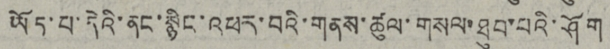ཡོད་པ་དེའི་ནང་སྙིང་འཕར་བའི་གནས་ཚུལ་གསལ་ཐུབ་པའི་ཤོག
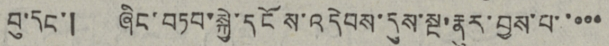བུ་དང་། ཞིང་བཏབ་སྐྱེ་དངོས་འདེབས་དུས་སྔ་རྣར་བྱས་པ་་་་་
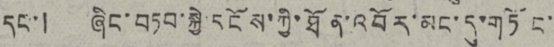དང་། ཞིང་བཏབ་སྐྱེ་དངོས་ཀྱི་ཐོན་འབོར་མང་དུ་གཏོང་
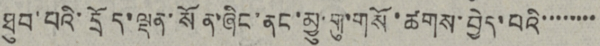ཐུབ་པའི་དྲོད་ལྡན་སོན་ཞིང་ནང་མྱུ་གུ་གསོ་ཚགས་བྱེད་པའི་་་་་་་་
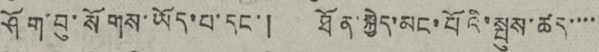ཤོག་བུ་སོགས་ཡོད་པ་དང་། ཐོན་སྐྱེད་མང་པོའི་སྤུས་ཚད་་་་
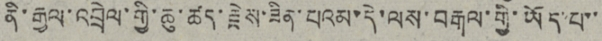ནི་རྒྱལ་འབྲེལ་གྱི་ཆུ་ཚད་རྗེས་ཟིན་པའམ་དེ་ལས་བརྒལ་གྱི་ཡོད་པ་་
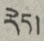རེད།
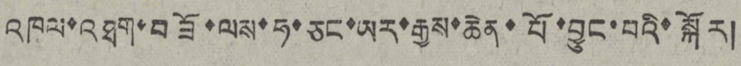འཁལ་འཐག་བཟོ་ལས་ཧ་ཅང་ཡར་རྒྱས་ཆེན་པོ་བྱུང་བའི་སྐོར།
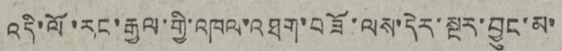འདི་ལོ་རང་རྒྱལ་གྱི་འཁལ་འཐག་བཟོ་ལས་དེར་སྔར་བྱུང་མ་
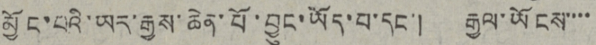མྱོང་བའི་ཡར་རྒྱས་ཆེན་པོ་བྱུང་ཡོད་པ་དང་། རྒྱལ་ཡོངས་་་་
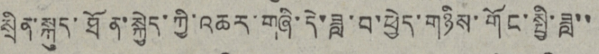སྲིན་སྐུད་ཐོན་སྐྱེད་ཀྱི་འཆར་གཞི་དེ་ཟླ་བ་ཕྱེད་གཉིས་གོང་སྤྱི་ཟླ་་
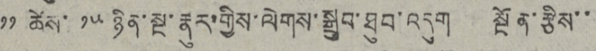༡༡ ཚེས་ ༡༥ ཉིན་སྔ་རྣུར་གྱིས་ལེགས་སྒྲུབ་ཐུབ་འདུག སྔོན་རྩིས་་
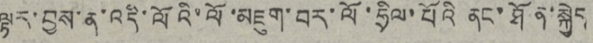ལྟར་བྱས་ན་འདི་ལོའི་ལོ་མཇུག་བར་ལོ་ཧྲིལ་པོའི ནང་ཐོན་སྐྱེད
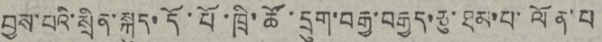བྱས་པའི་སྲིན་སྐད་དོ་པོ་ཁྲི་ཚོ་དྲུག་བརྒྱ་བརྒྱད་ཅུ་ཐམ་པ་ལོན་པ
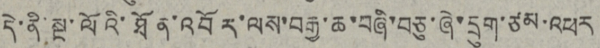དེ་ནི་སྔ་ལོའི་ཐོན་འབོར་ལས་བརྒྱ་ཆ་བཞི་བཅུ་ཞེ་དྲུག་ཙམ་འཕར
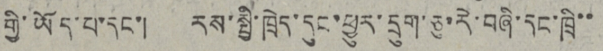གྱི་ཡོད་པ་དང་། རས་སྤྱི་ཁྲེད་དུང་ཕྱུར་དྲུག་ཅུ་རེ་བཞི་དང་ཁྲི་་
